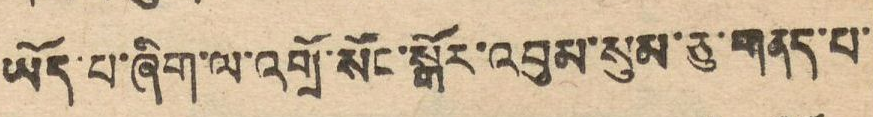ཡོད་པ་ཞིག་ལ་འགྲོ་སོང་སྒོར་འབུམ་སུམ་ཅུ་གནད་པ་
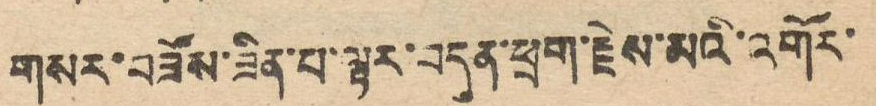གསར་བཟོས་ཟིན་པ་ལྟར་བདུན་ཕྲག་རྗེས་མའི་འགོར་
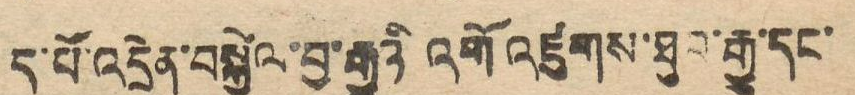ད་པོ་འདྲེན་བསྐྱེལ་བྱ་རྒྱུའི འགོ འཛུགས་ཐུབ་རྒྱུ་དང་
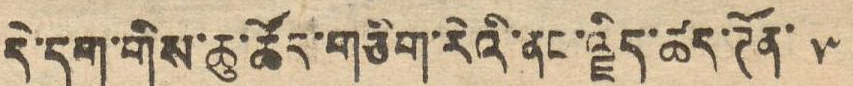དེ་དག་གིས་ཆུ་ཚོད་གཅིག་རེའི་ནང་ལྗིད་ཚད་ཊོན་ ༥
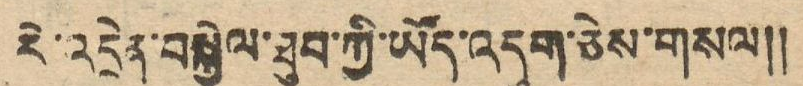རེ་འདྲེན་བསྐྱེལ་ཐུབ་ཀྱི་ཡོད་འདུག་ཅེས་གསལ།།
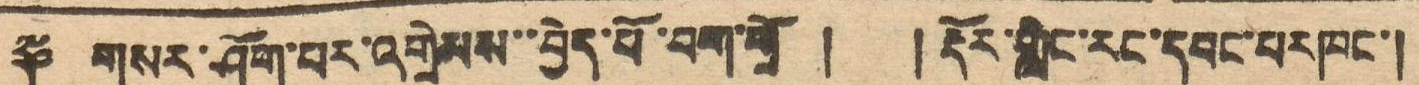༈ གསར་ཤོག་པ་འགྲེམས་བྱེད་པོ་བག་གྲོ ། །རྡོར་གླིང་རང་དབང་པར་ཁང་།
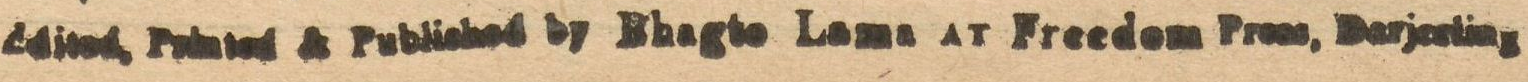Edited Printed & Published by Bhagto Lama AT Freedom Press, Darjeeling
